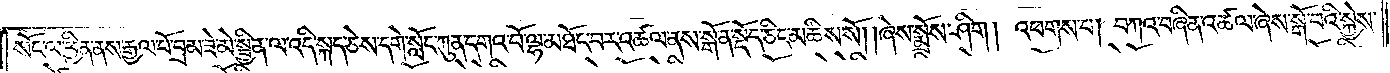སོང་ལ་ཕྱིན་ནས་རྒྱལ་པོ་བྲམ་ཟེ་མེ་སྦྱིན་ལ་འདི་སྐད་ཅེས་དགེ་སློང་ཀུན་དགའ་བོ་ལྷ་མཐོང་བར་འཚལ་ནས་སྒོ་ན་སྡོད་ཅིང་མཆིས་སོ། །ཞེས་སྨྲོས་ཤིག། འཕགས་པ། བཀའ་བཞིན་འཚལ་ཞེས་སྒོ་བའི་སྐྱེས་
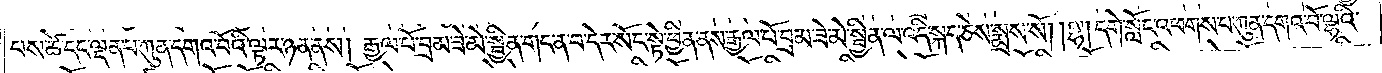པས་ཚེ་དང་ལྡན་པ་ཀུན་དགའ་བོའི་ལྟར་ཉན་ནས། རྒྱལ་པོ་བྲམ་ཟེ་མེ་སྦྱིན་གང་ན་བ་དེར་སོང་སྟེ་ཕྱིན་ནས་རྒྱལ་པོ་བྲམ་ཟེ་མེ་སྦྱིན་ལ་འདི་སྐད་ཅེས་སྨྲས་སོ། །ལྷ། དགེ་སློང་འཕགས་པ་ཀུན་དགའ་བོ་ལྷའི་
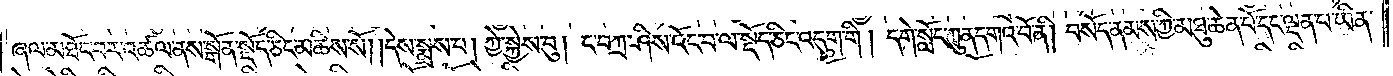ཞལ་མཐོང་བར་འཚལ་ནས་སྒོ་ན་སྡོད་ཅིང་མཆིས་སོ། །དེས་སྨྲས་པ། ཀྱེ་སྐྱེས་བུ། ང་བཀྲ་ཤིས་འོང་བ་ལ་སྡོད་ཅིང་འདུག་གི། དགེ་སློང་ཀུན་དགའ་བོ་ནི། བསོད་ནམས་ཀྱི་མཐུ་ཆེན་པོ་དང་ལྡན་པ་ཡིན་
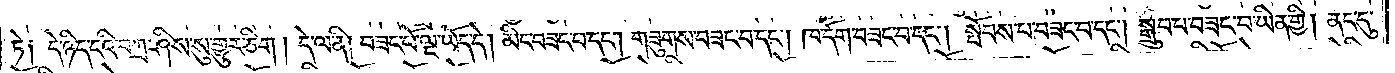ཏེ། དེ་ཉིད་ངའི་བཀྲ་ཤིས་སུ་གྱུར་ཅིག །དེ་ལ་ནི། བཟང་པོ་ལྔ་ཡོད་དེ། མིང་བཟང་བ་དང༌། གཟུགས་བཟང་བ་དང༌། ཁ་དོག་བཟང་བ་དང༌། སྤོབས་པ་བཟང་བ་དང༌། སྒྲུབ་པ་བཟང་བ་ཡིན་གྱི། ནང་དུ་
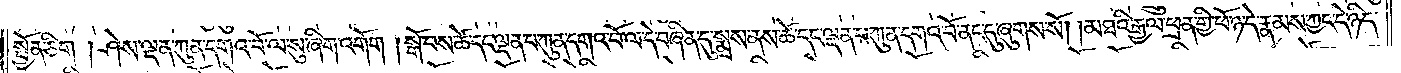སྤྱོན་ཅིག །ཤེས་ལྡན་ཀུན་དགའ་བོ་ལ་སུ་ཞིག་འགོག །སྒོ་བས་ཚེ་དང་ལྡན་པ་ཀུན་དགའ་བོ་ལ་དེ་བཞིན་དུ་སྨྲས་ནས་ཚེ་དང་ལྡན་པ་ཀུན་དགའ་བོ་ནང་དུ་ཞུགས་སོ། །མཐའི་རྒྱལ་ཕྲན་གྱི་ཕོ་ཉ་དེ་རྣམས་ཀྱང་དེ་ཉིད་
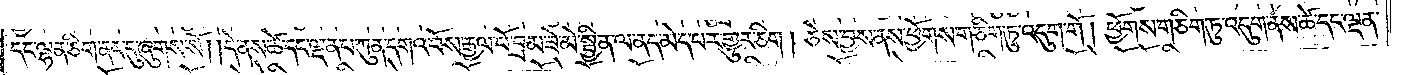དང་ལྷན་ཅིག་ནང་དུ་ཞུགས་སོ། །དེ་ནས་ཚེ་དང་ལྡན་པ་ཀུན་དགའ་བོས་རྒྱལ་པོ་བྲམ་ཟེ་མེ་སྦྱིན་ལ་ནད་མེད་པར་གྱུར་ཅིག། ཅེས་བྱས་ནས་ཕྱོགས་གཅིག་ཏུ་འདུག་གོ། ཕྱོགས་གཅིག་ཏུ་འདུག་ནས་ཚེ་དང་ལྡན་
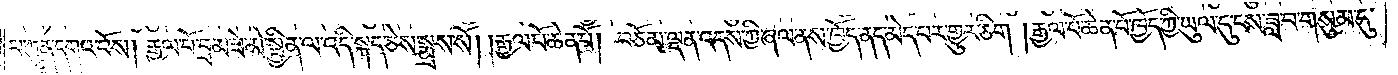པ་ཀུན་དགའ་བོས། རྒྱལ་པོ་བྲམ་ཟེ་མེ་སྦྱིན་ལ་འདི་སྐད་ཅེས་སྨྲས་སོ། །རྒྱལ་པོ་ཆེན་པོ། བཅོམ་ལྡན་འདས་ཀྱི་ཞལ་ནས་ཁྱོད་ནད་མེད་པར་གྱུར་ཅིག །རྒྱལ་པོ་ཆེན་པོ་ཁྱོད་ཀྱི་ཡུལ་དུ་ངས་ཟླ་བ་གསུམ་དུ་
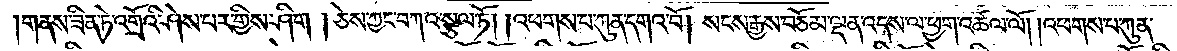།གནས་ཟིན་ཏེ་འགྲོའི་ཤེས་པར་གྱིས་ཤིག །ཅེས་ཀྱང་བཀའ་སྩལ་ཏོ། །འཕགས་པ་ཀུན་དགའ་བོ། སངས་རྒྱས་བཅོམ་ལྡན་འདས་ལ་ཕྱག་འཚལ་ལོ། །འཕགས་པ་ཀུན་
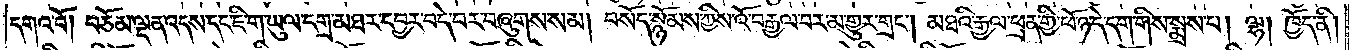དགའ་བོ། བཅོམ་ལྡན་འདས་དང་ཇི་ག་ཡུལ་དགྲ་མཐར་དབྱར་བདེ་བར་བཞུགས་སམ། བསོད་སྙོམས་ཀྱིས་འོ་བརྒྱལ་བར་མ་གྱུར་གྲང༌། མཐའི་རྒྱལ་ཕྲན་གྱི་ཕོ་ཉ་དེ་དག་གིས་སྨྲས་པ། ལྷ། ཁྱོད་ནི།
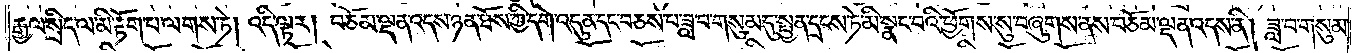རྒྱལ་སྲིད་ལ་མི་རྟོག་པ་ལགས་ཏེ། འདི་ལྟར། བཅོམ་ལྡན་འདས་ཉན་ཐོས་ཀྱི་དགེ་འདུན་དང་བཅས་པ་ཟླ་བ་གསུམ་དུ་སྤྱན་དྲངས་ཏེ་མི་སྣང་བའི་ཕྱོགས་སུ་བཞུགས་ནས་བཅོམ་ལྡན་འདས་ནི། ཟླ་བ་གསུམ་
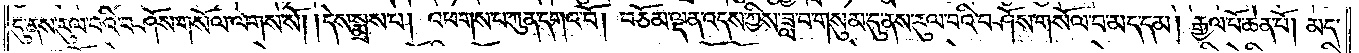དུ་ནས་རུལ་བའི་བཤོས་གསོལ་ལགས་སོ། །དེས་སྨྲས་པ། འཕགས་པ་ཀུན་དགའ་བོ། བཅོམ་ལྡན་འདས་ཀྱིས་ཟླ་བ་གསུམ་དུ་ནས་རུལ་བའི་བཤོས་གསོལ་བ་མད་དམ། རྒྱལ་པོ་ཆེན་པོ། མད་
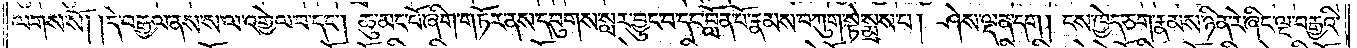ལགས་སོ། །དེ་བརྒྱལ་ནས་ས་ལ་འགྱེལ་བ་དང༌། ཆུ་མང་པོ་ཞིག་གཏོར་ནས་དབུགས་སླར་བྱུང་བ་དང་བློན་པོ་རྣམས་བཀུག་སྟེ་སྨྲས་པ། ཤེས་ལྡན་དག །ངས་ཁྱེད་ཅག་རྣམས་ཉིན་རེ་ཞིང་ལྔ་བརྒྱའི་
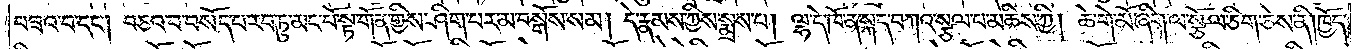བཟའ་བ་དང༌། བཅའ་བ་བསོད་པ་རབ་ཏུ་མང་པོ་སྟ་གོན་གྱིས་ཤིག་པར་མ་བསྒོས་སམ། དེ་རྣམས་ཀྱིས་སྨྲས་པ། ལྷ་དེ་ཁོ་ན་སྐད་བཀའ་སྩལ་པ་མཆིས་ཀྱི། ཆེ་གེ་མོ་ཞིག་ལ་སྩོལ་ཅིག་ཅེས་ནི། ཁྱོད་
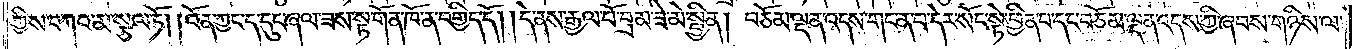ཀྱིས་བཀའ་མ་སྩལ་ཏོ། །འོན་ཀྱང་ད་དུང་ཞལ་ཟས་སྟ་གོན་ཁོ་ན་བགྱིད་དོ། །དེ་ནས་རྒྱལ་པོ་བྲམ་ཟེ་མེ་སྦྱིན། བཅོམ་ལྡན་འདས་གང་ན་བ་དེར་སོང་སྟེ་ཕྱིན་པ་དང་བཅོམ་ལྡན་འདས་ཀྱི་ཞབས་གཉིས་ལ་
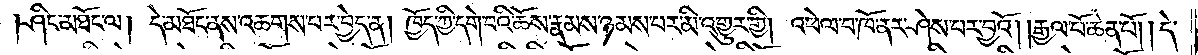།ཤིང་མཐོང་ལ། དེ་མཐོང་ནས་འཆགས་པར་བྱེད་ན། ཁྱོད་ཀྱི་དགེ་བའི་ཆོས་རྣམས་ཉམས་པར་མི་འགྱུར་གྱི། འཕེལ་བ་ཁོ་ནར་ཤེས་པར་བྱའོ། །རྒྱལ་པོ་ཆེན་པོ། །དེ་
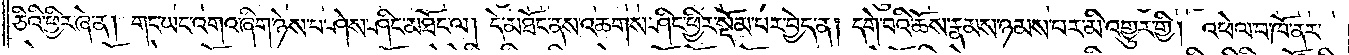ཅིའི་ཕྱིར་ཞེ་ན། གང་ཡང་འགའ་ཞིག་ཉེས་པ་ཤེས་ཤིང་མཐོང་ལ། དེ་མཐོང་ནས་འཆགས་ཤིང་ཕྱིར་སྡོམ་པར་བྱེད་ན། དགེ་བའི་ཆོས་རྣམས་ཉམས་པར་མི་འགྱུར་གྱི། འཕེལ་བ་ཁོ་ནར་
